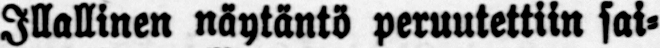Illallinen näytäntö peruutettiin sai-
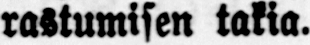rastumisen takia.
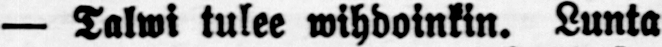— Talwi tulee wihdoinkin. Lunta
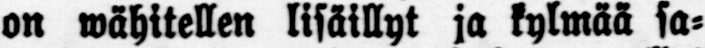on wähitellen lisäillyt ja kylmää sa-
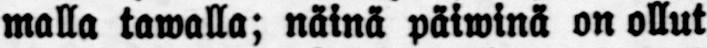malla tawalla; näinä päiwinä on ollut
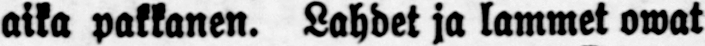aika pakkanen. Lahdet ja lammet ovat
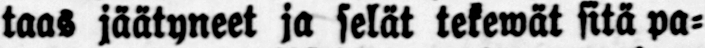taas jäätyneet ja selät tekewät sitä pa-
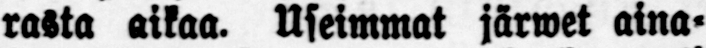rasta aikaa. Useimmat järwet aina-
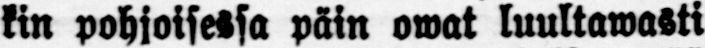kin pohjoisessa päin ovat luultawasti
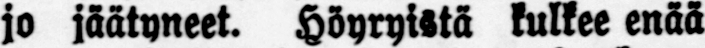jo jäätyneet. Höyryistä kulkee enää
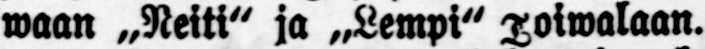waan »Neiti" ja »Lempi" Toiwalaan.
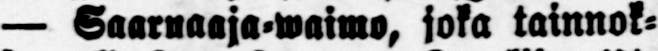— Saarnaaja-waimo, joka tainnok-
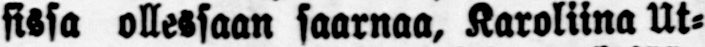sissa ollessaan saarnaa, Karoliina Ut-
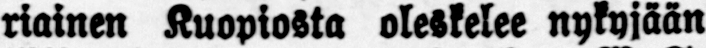riainen Kuopiosta oleskelee nykyjään
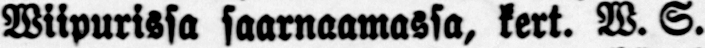Wiipurissa saarnaamassa, kert. W. S.
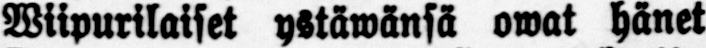Wiipurilaiset ystäwänsä ovat hänet
